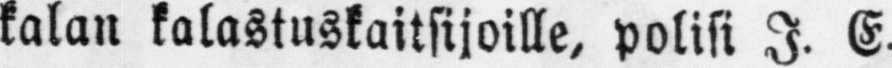kalan kalastuskaitsijoille, polisi J. E.
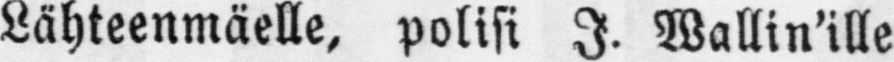Lähteenmäelle, polisi J. Wallin'ille
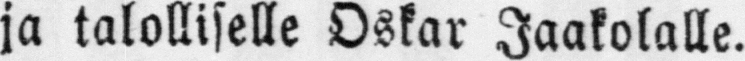ja talolliselle Oskar Jaakolalle.
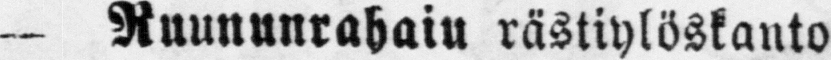— Ruununrahaiu rästiylöskanto
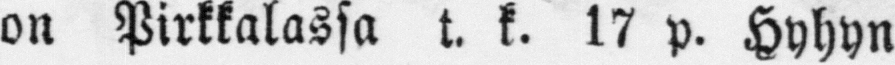on Pirkkalassa t. k. 17 p. Hyhyn
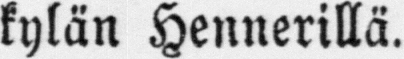kylän Hennerillä.
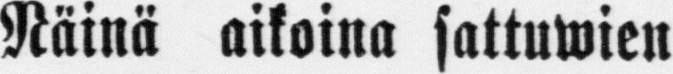Näinä aikoina sattuwien
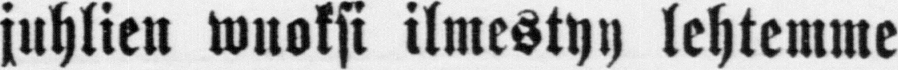juhlien wuoksi ilmestyy lehtemme
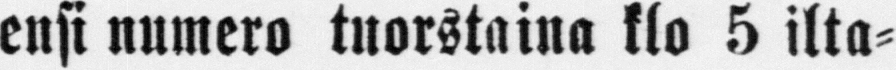ensi numero tuorstaina klo 5 ilta-
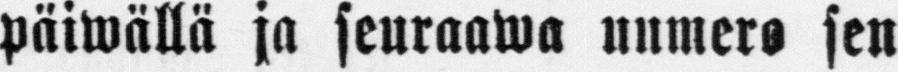päiwällä ja seuraawa numero sen
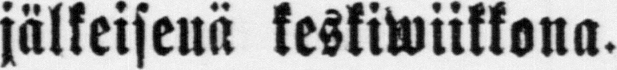jälkeisenä keskiwiikkona.
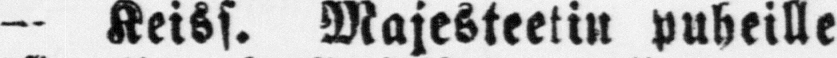— Keiss. Majesteetin puheille
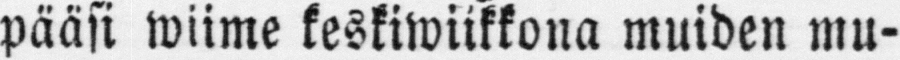pääsi wiime keskiwiikkona muiden mu-
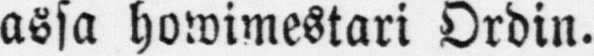assa howimestari Ordin.
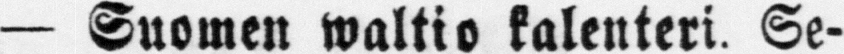— Suomen waltio kalenteri. Se-
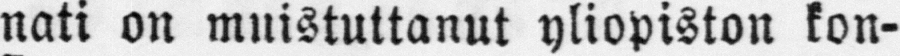nati on muistuttanut yliopiston kon-
